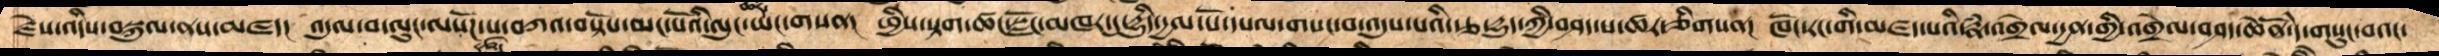རྗེས་འདིས་བསྐུལ་ནས་མཛད། འདུལ་བ་ལུང་ལསོཌ་པ་བཀའ་བསྟོས་མང་པོའི་ལུང་ཡང་གསན། ཕྱིས་སྟག་ཚང་སྫོང་མཁར་དྱུདི་དྱལ་པོ་དཔལ་གསང་བ་འདུས་པའི་རྩ་དྱུད་ཀྱི་བཤད་པ་ཚར་ཅིག་གསན། ཁོང་རང་གིས་མཛད་པའི་རྣཾ་འགྲེལ་དྱན་གྱི་འགྲེལ་བཤད་ཆེནོ་དེ་གསུང་བའང་
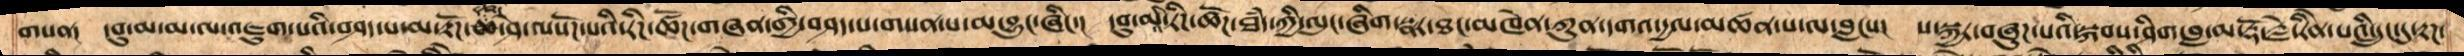གསན། དབུ་མ་ལ་འཇུག་པའི་བཤད་པ་མ་རྟོཌ་རྩ་ཆ་ཤེ་ལསོཌ་པའི་རིཌ་ཚོཌ་གཞན་གྱི་བཤད་པ་གསན་པ་མ་བྱུང་ཞིང་། དབུ་མའི་རིཌ་ཚོཌ་ཐཾད་ཀྱི་ལུང་ཞིག་སྣར་ཐང་མཁེན་ཀུན་དགའ་དྱལ་མཚན་པ་ལ་བླངས། ས་སྐྱར་བཞུཌ་པའི་སྐབས་ཤིག་བླ་མ་རྡོ་རྗེ་རིེན་པའི་དྲུང་དུ་རྟཌ་
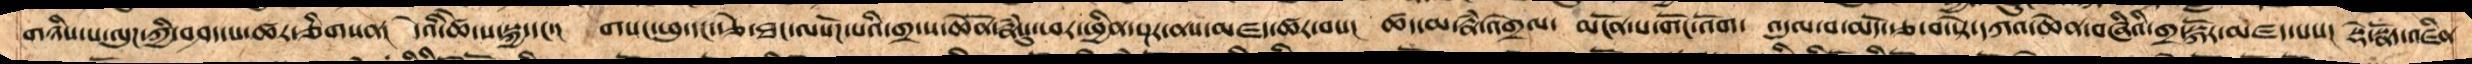གཉིས་ས་ལུཌ་ཀྱི་བཤད་པ་ཚར་ཅིགསན།  དེའི་ཚེ་ས་སྐྱ་དང་།  གསང་ཕུ་དང་རྩེ་ཐང་ལསོཌ་པའི་གྲ་ས་ཆེནོ་རྣཾསུ་ཕར་ཕྱིན་སྔར་ནས་མཛད་ཚར་བས།  ཚད་མ་རྣཾ་འགྲེལ་  མངོན་པ་གོང་འོག་  འདུལ་བ་མདོ་རྩ་བ་སྟེ་དཀའ་ཆེན་བཞིའི་གྲ་སྐོར་མཛད་པས།  སྡེ་སྣོད་འཛིན་
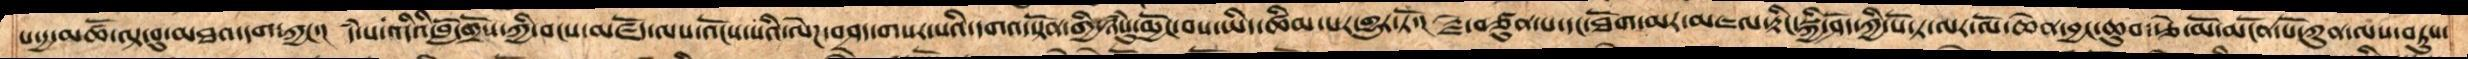པ་དྱ་མཚོ་ལྟ་བུ་མཐའ་དག་ཀྱང་།  དཾ་པ་འདིའི་བློ་གྲོས་ཀྱི་བངས་མཛོད་ལས་འོངས་པའི་ལེཌ་བཤད་གསར་པའི་དགའ་སྟོན་གྱི་ཉཾསུ་མྱོང་བས་ཡིད་ཚིམ་པར་གྱུར་ཏོ་།  རྗེ་བཙུན་པ་དང་ཐོག་མར་མཇལ་རྟིང་སྐྱི་ཤོད་ཀྱི་པོ་ཏ་ལར་ལོ་ཆེན་བྱང་ཆུབ་རྩེ་མོ་མངོན་པོ་ཀུན་ལས་བཏུས་
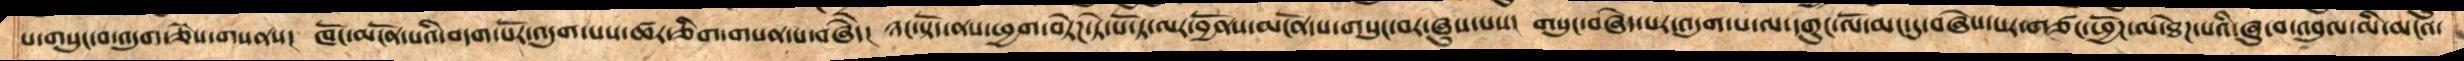པ་གསུང་བ་འདུག་ཅེས་གསནས།  ཁོང་མངོན་པའི་བདག་པོར་འདུག་པས་ཚར་ཅིག་གསན་པ་བཞཻད།  ཉང་སྟོད་ནས་ཕྱག་བཏེཌ་ཏེ་པོ་ཏ་ལར་བྱོནས་མངོན་པ་གསུང་བར་ཞུས་པས།  གསུང་བཞེད་པར་འདུག་པ་ལ་དགུང་ལོ་མང་དུ་བཞེས་པར་གཙང་ཕྱོཌ་ལ་ཐེཌ་པའི་ཞུ་བ་འབུལ་མི་མངའ་
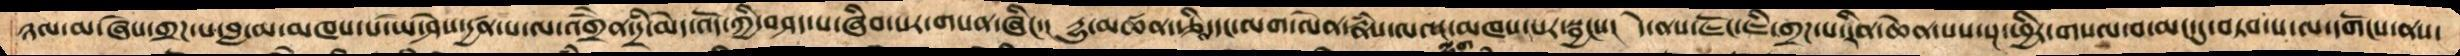ཉལ་མ་ཞེས་གྲཌ་པ་བླ་མ་མཁས་པ་ཡེ་ཤེས་དྱཚན་ལ་འགྲཻན་དྲི་མེད་འོད་ཀྱི་བཤད་པ་ཞིབ་པར་གསན་ཅིང་། དྱུ་མཚན་རྩིས་དང་ལག་ལེན་རྣཾས་ལའང་མཁས་པར་སྦྱངས། དེ་ནས་ཛོང་ཇི་གྲཌ་པ་རིན་ཆེན་པས་སྔ་ཕྱིར་གསལ་བ་མང་དུ་བཏབ་པ་ལ་དགོངས་ནས་
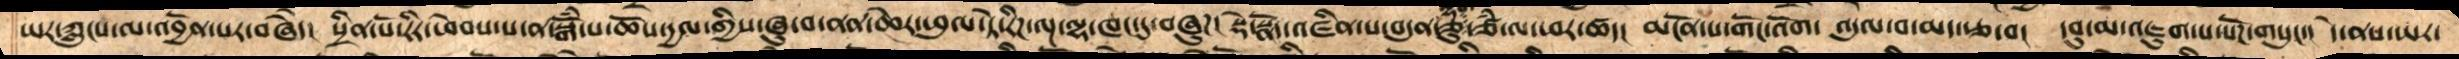ཡར་ཀླུངས་ལ་འབྱོན་པར་བཞེད།  སྲིན་པོ་རིར་ཕེབས་པ་ན་སྒོཾ་པ་ཆོས་དྱལ་གྱིས་ཞུ་བ་ནན་ཆེར་ཕུལ་ཏེ་རིཌ་ལྔ་ལྷ་ཁང་དུ་བཞུཌ།  སྡེ་སྣོད་འཛིན་པ་བདུན་ཅུ་ཙཾ་ལ་ཕར་ཚད།  མངོན་པ་གོང་འོག་  འདུལ་བ་མད་རྩ་བ།  དབུ་མ་འཇུག་པ་སོཌ་གསུང་།  དེ་ནས་ཡར་
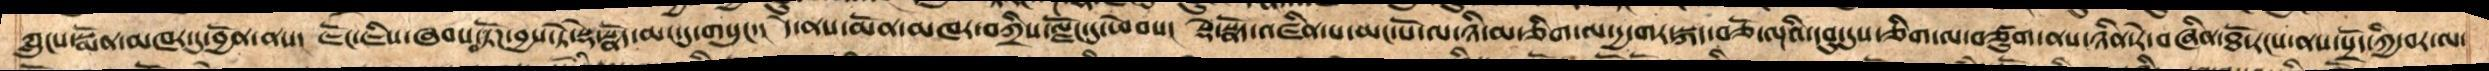ཀླུངས་སྨོན་མཁར་དུ་བྱོན་ནས། ཇོང་ཇིང་ཞབས་བཏོཌ་བྱས་ཏེ་སྡེ་སྣོད་མང་དུ་གསུང་། དེ་ནས་མོན་མཁར་བཀྲིས་ལྗོང་དུ་ཕེབས། སྡེ་སྣོད་འཛིན་པ་མང་པོ་ལ་ཉི་མ་ཅིག་ལ་དྱ་གར་སྐད་བཅོ་ལྔའི་དབུ་དུས་ཅིག་ལ་བཙུག་ནས་ཉིན་རེ་བཞིན་ཐོ་རངས་ནས་སྲོད་ཀྱི་བར་ལ་
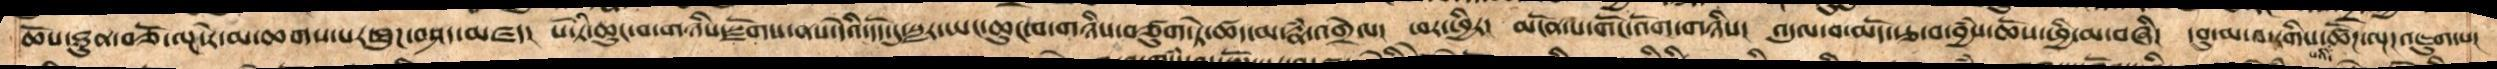ཆོས་ཐུན་བཅོ་ལྔ་རེ་མ་ཆགས་པར་ཐུཌ་བཤད་མཛད། པོ་ཏི་ཆུང་བ་གཉིས་སྫོགས་ནས་དེའི་དོད་དུ་སླར་ཡང་ཆུང་བ་གཉིས་བཙུག་ཏེ་ཚད་མ་རྣཾ་འགྲེལ། ཕར་ཕྱིན། མངོན་པ་གོང་འོག་གཉིས།   འདུལ་བ་མདོ་རྩ་བྱཾས་ཆོས་ཕྱི་མ་བཞི། དབུ་མ་བ་རིགས་པའི་ཚོཌ་ལྔ།འཇུག་པ།
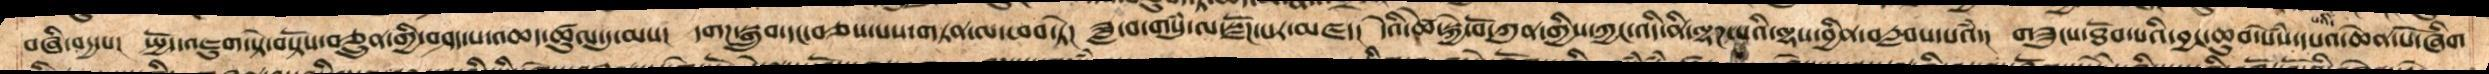བཞི་བདྱ་པ། སྤྱོད་འཇུག་སྟེ་བསྟོས་བཅུུན་གྱི་བཤད་པ་འཆད་ཚུལ་དུ་མས། དགཌ་སྒྲུབ་དང་བཅས་པས་གཏན་ལ་ཕབ་སྟེ། ཟླ་བ་གསུཾ་ལ་སྫོཌ་པར་མཛད། དེའི་ཚེ་སྐྱེ་བོ་ཀུན་གྱིས་ཀྱང་འདི་ནི་ལྷཌ་པའི་ལྷས་བྱིན་གྱིས་བརླབས་པའཾ། གཟུངས་ཐོབ་པའི་བྱང་ཚུབ་སེཾས་དཔའ་ཆེན་པོ་ཞིག་
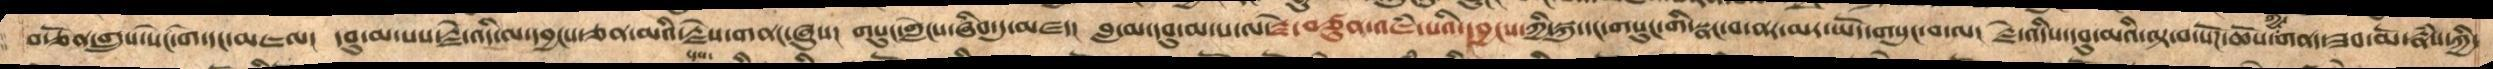བརྩོན་གྲུས་སེང་གེ་དང་མཇལ། དབུ་མ་པས་རྗེ་འདི་ལ་དབྱངས་ཅན་མའི་རྗེས་གནང་ཞུས། གསུང་གླེངས་ཞིབ་ཏུ་མཛད། བླ་མ་དབུ་མ་པ་ལ་རྗེ་བཙུན་འཇཾ་པའི་དབྱངས་ཀྱི་སྐུ་དང་གསུང་གི་སྣང་བ་ནར་མར་ཡོད་གསུང་བ་ལ། རྗེ་འདིས་དབུ་མའི་ལྟ་བ་སོཌ་ཆོས་ཀྱི་གནད་ཟབ་མོ་རྣཾས་ཀྱི་
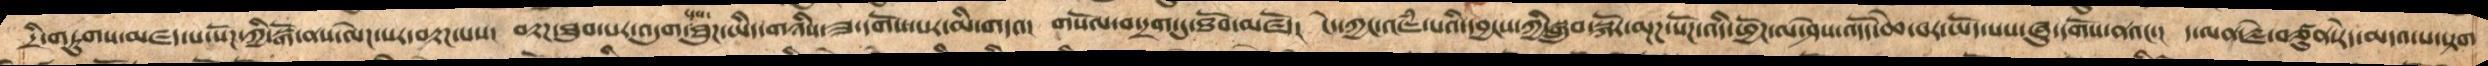དྲི་གཏུགས་མཛད་པ་སོཌ་ཀྱི་སྒོ་ནས་ལེཌ་པར་བརྟཌ་པས། བརྟཌ་ཐུབ་པར་འདུག་པས་ཐུཌ་ཡིད་གཉིས་ཟ་དགོས་པར་མི་གདའ། གསོལ་བ་དྲག་ཏུ་ཐོབ་མཛོད། ངེད་ཀྱང་འཇཾ་པའི་དབྱངས་ཀྱི་སྒྲུབ་སྐོར་མྔཌ་སོཌ་འདི་ཕྱོཌ་ལ་ཤེས་འདོད་ཆེ་བར་ཡོད་པས་ཞུ་དགོས་ནའང་།  ད་ལན་རྗེ་བཙུན་རེད་མདའ་པ་སྟག་
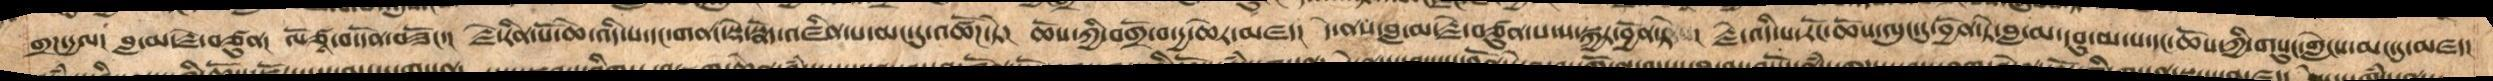གྲཌ་དྱལ། བླ་མ་རྗེ་བཙུན། ལོཙཱ་བ་དོན་བཟོང་། རྗེ་རིན་པོ་ཆེ་འདི་པ་དང་གནང་སྡེ་སྣོད་འཛིན་པ་མང་དུ་མ་འཚོཌ་ཏེ། ཆོས་ཀྱི་བགྲོ་བ་དྱ་ཆེར་མཛད། དེ་ནས་བླ་མ་རྗེ་བཙུན་པ་ས་སྐྱར་བྱོན་ཏེ།  རྗེ་འདི་པ་རོང་ཆོས་ལུང་དུ་བྱོན་ཏེ་བླ་མ་དབུ་མ་པ་དང་ཆོས་ཀྱི་གསུང་གླེངས་མང་དུ་མཛད།
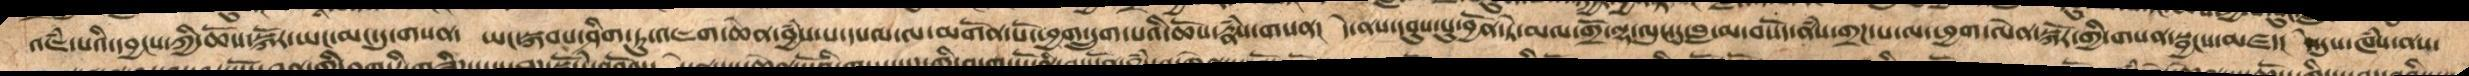འཇཾ་པའི་དབྱངས་ཀྱི་ཆོས་སྐོར་ཡང་མང་དུ་གསན། ཡང་སྐབས་ཤིག་ཏུའཇག་ཆེན་བྱཾས་པ་དཔལ་ལ་མགོན་པོ་ཕྱག་དྲུག་པའི་ཆོས་རྣཾས་གསན། དེ་ནས་དབུས་སུ་བྱོན་ཏེ་མལ་གྲོ་ལྷ་ལུང་དུ་བླ་མ་བསོད་ནཾས་གྲཌ་པ་ལ་ཕྱག་ལེན་སྐོར་གྱི་གསན་སྦྱངས་མཛད། དེ་དུས་ཁཾས་ནས་
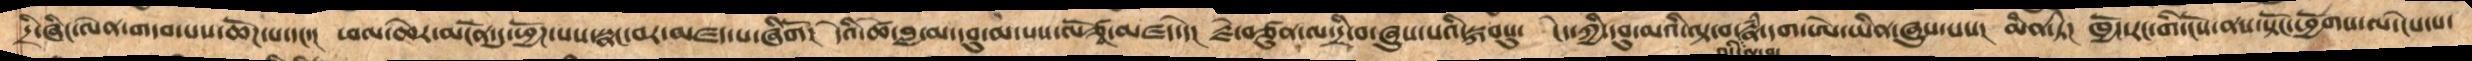དྲི་ཞིང་ལེན་གདབ་པས་ཚོཌ་པ་དང་། ཕལ་ཆེར་མངོན་དུ་ཕྱོཌ་པས་སྣང་བར་མཛད་པ་ཞིགོ།  དེའི་ཚེ་བླ་མ་དབུ་མ་པས་ལོཙཱ་མཛད་དེ། རྗེ་བཙུན་ལ་དྲི་བ་ཞུས་པའི་སྐབསུ། ངེད་ཀྱི་དབུ་མའི་ལྟ་བ་འདི་ལྟ་བ་རྣཾ་དག་ཨེ་ཡིན་ཞུས་པས། མིན་ཏེ། ཁྱོད་རང་གི་ངོས་ནས་སྟོང་ཕྱོགས་ལ་ངེས་པ་
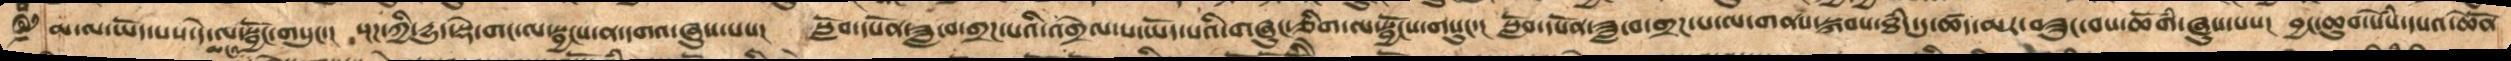མ་ལ་ཡོད་པས་དེ་ལ་སྦྱོང་གསུང་། སྔཌ་ཀྱི་དྱུད་སྡེ་གང་ལ་སྦྱངས་ན་དགའ་ཞུས་པས། སློབ་དཔོན་ཟླ་བ་གྲཌ་པའི་འགྲེལ་པ་ཡོད་པའི་གཞུང་ཅིག་ལ་སྦྱོངས་གསུང་། སློབ་དཔོན་ཟླ་བ་གྲཌ་པ་ལ་གནས་སྐབས་ཐདཾ་དུ་ཚད་མར་བཟུང་བས་ཆོགི་ཞུས་པས། བྱང་ཆུབ་སེཾས་དཔའ་ཆེནོ
